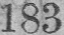183
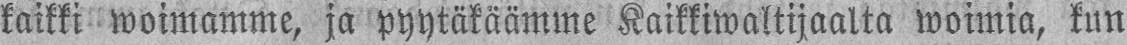kaikki woimamme, ja pyytäkäämme Kaikkiwaltijaalta woimia, kun
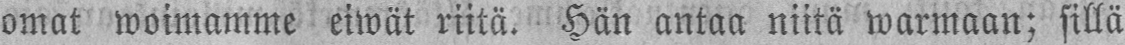omat woimamme eiwät riitä. Hän antaa niitä warmaan; sillä
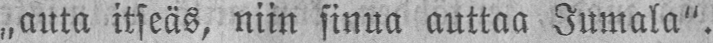„auta itseäs, niin sinua auttaa Jumala".
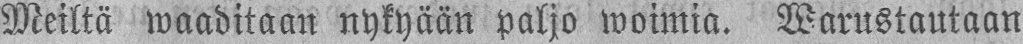Meiltä waaditaan nykyään paljo woimia. Warustautaan
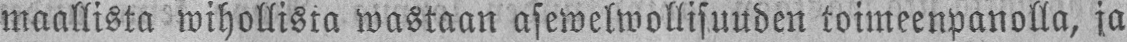maallista wihollista wastaan asewelwollisuuden toimeenpanolla, ja
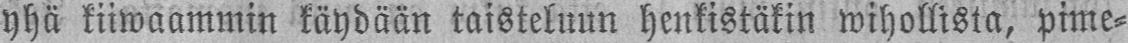yhä kiiwaammin käydään taisteluun henkistäkin wihollista, pime-
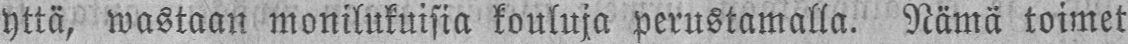yttä, wastaan monilukuisia kouluja perustamalla. Nämä toimet
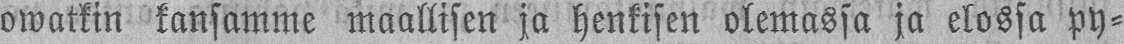owatkin kansamme maallisen ja henkisen olemassa ja elossa py-
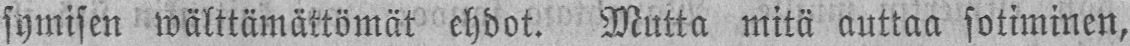symisen wälttämättömät ehdot. Mutta mitä auttaa sotiminen,
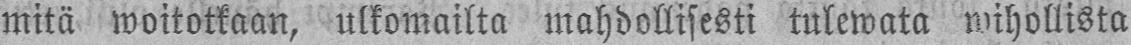mitä woitotkaan, ulkomailta mahdollisesti tulewata wihollista
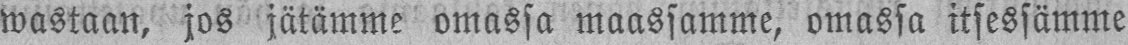wastaan, jos jätämme omassa maassamme, omassa itsessämme
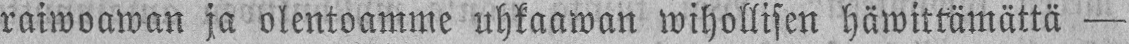raiwoawan ja olentoamme uhkaawan wihollisen häwittämättä —
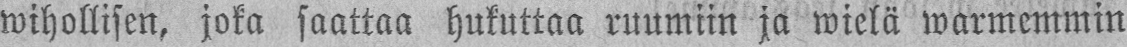wihollisen, joka saattaa hukuttaa ruumiin ja wielä warmemmin
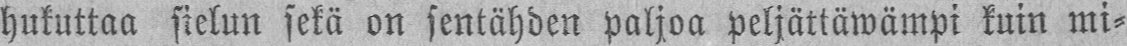hukuttaa sielun sekä on sentähden paljoa peljättäwämpi kuin mi-
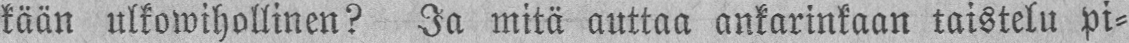kään ulkowihollinen? Ja mitä auttaa ankarinkaan taistelu pi-
